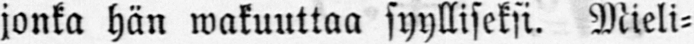jonka hän wakuuttaa syylliseksi. Mieli-
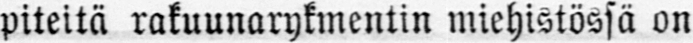piteitä rakuunarykmentin miehistössä on
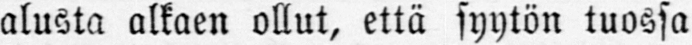alusta alkaen ollut, että syytön tuossa
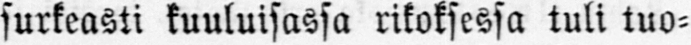surkeasti kuuluisassa rikoksessa tuli tuo-
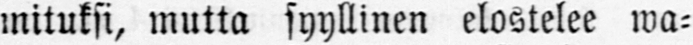mituksi, mutta syyllinen elostelee wa-
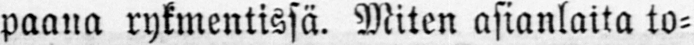paana rykmentissä. Miten asianlaita to-
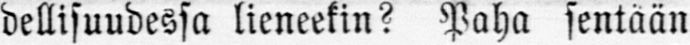dellisuudessa lieneekin? Paha sentään
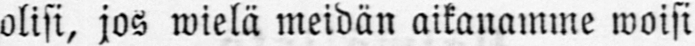olisi, jos wielä meidän aikanamme woisi
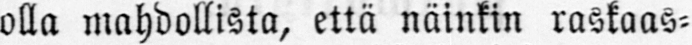olla mahdollista, että näinkin raskaas-
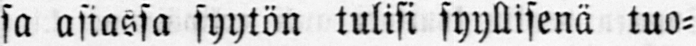sa asiassa syytön tulisi syyllisenä tuo-
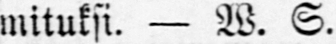mituksi. — W. S.
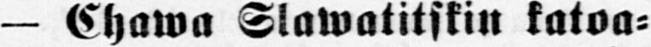— Chawa Slawatitskin katoa-
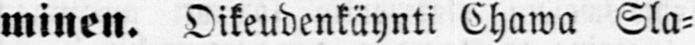minen. Oikeudenkäynti Chawa Sla-
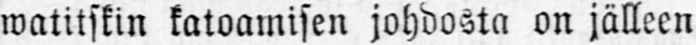watitskin katoamisen johdosta on jälleen
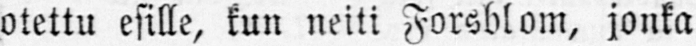otettu esille, kun neiti Forsblom, jonka
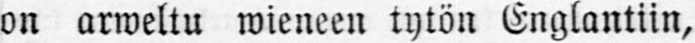on arweltu wieneen tytön Englantiin,
